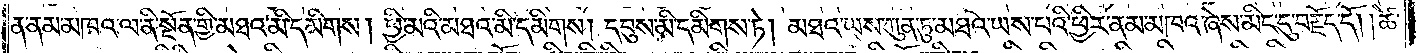ན་ནམ་མཁའ་ལ་ནི་སྔོན་གྱི་མཐའ་མི་དམིགས། ཕྱི་མའི་མཐའ་མི་དམིགས། དབུས་མི་དམིགས་ཏེ། མཐའ་ཡས་ཀུན་ཏུ་མཐའ་ཡས་པའི་ཕྱིར་ནམ་མཁའ་ཞེས་མིང་དུ་བརྗོད་དོ། །ཚེ་
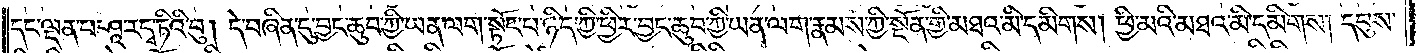དང་ལྡན་པ་ཤཱ་ར་དྭ་ཏིའི་བུ། དེ་བཞིན་དུ་བྱང་ཆུབ་ཀྱི་ཡན་ལག་སྟོང་པ་ཉིད་ཀྱི་ཕྱིར་བྱང་ཆུབ་ཀྱི་ཡན་ལག་རྣམས་ཀྱི་སྔོན་གྱི་མཐའ་མི་དམིགས། ཕྱི་མའི་མཐའ་མི་དམིགས། དབུས་
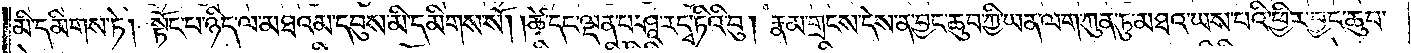མི་དམིགས་ཏེ། སྟོང་པ་ཉིད་ལ་མཐའམ་དབུས་མི་དམིགས་སོ། །ཚེ་དང་ལྡན་པ་ཤཱ་ར་དྭ་ཏིའི་བུ། རྣམ་གྲངས་དེས་ན་བྱང་ཆུབ་ཀྱི་ཡན་ལག་ཀུན་ཏུ་མཐའ་ཡས་པའི་ཕྱིར་བྱང་ཆུབ་
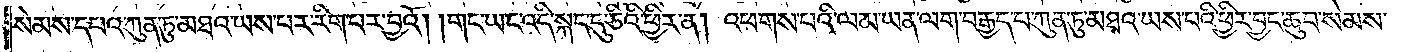སེམས་དཔའ་ཀུན་ཏུ་མཐའ་ཡས་པར་རིག་པར་བྱའོ། །གང་ཡང་འདི་སྐད་དུ་ཅིའི་ཕྱིར་ན། འཕགས་པའི་ལམ་ཡན་ལག་བརྒྱད་པ་ཀུན་ཏུ་མཐའ་ཡས་པའི་ཕྱིར་བྱང་ཆུབ་སེམས་
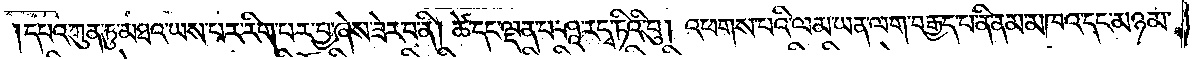དཔའ་ཀུན་ཏུ་མཐའ་ཡས་པར་རིག་པར་བྱ་ཞེས་ཟེར་བ་ནི། ཚེ་དང་ལྡན་པ་ཤཱ་ར་དྭ་ཏིའི་བུ། འཕགས་པའི་ལམ་ཡན་ལག་བརྒྱད་པ་ནི་ནམ་མཁའ་དང་མཉམ་
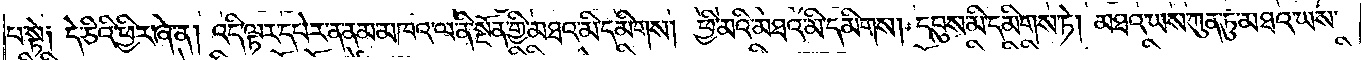པ་སྟེ། དེ་ཅིའི་ཕྱིར་ཞེ་ན། འདི་ལྟར་དཔེར་ན་ནམ་མཁའ་ལ་ནི་སྔོན་གྱི་མཐའ་མི་དམིགས། ཕྱི་མའི་མཐའ་མི་དམིགས། དབུས་མི་དམིགས་ཏེ། མཐའ་ཡས་ཀུན་ཏུ་མཐའ་ཡས་
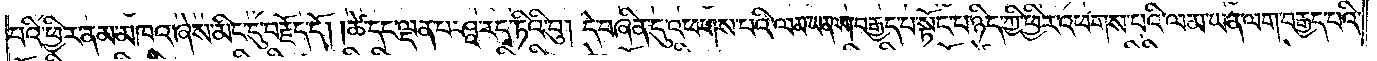པའི་ཕྱིར་ནམ་མཁའ་ཞེས་མིང་དུ་བརྗོད་དོ། །ཚེ་དང་ལྡན་པ་ཤཱ་ར་དྭ་ཏིའི་བུ། དེ་བཞིན་དུ་འཕགས་པའི་ལམ་ཡན་ལག་བརྒྱད་པ་སྟོང་པ་ཉིད་ཀྱི་ཕྱིར་འཕགས་པའི་ལམ་ཡན་ལག་བརྒྱད་པའི་
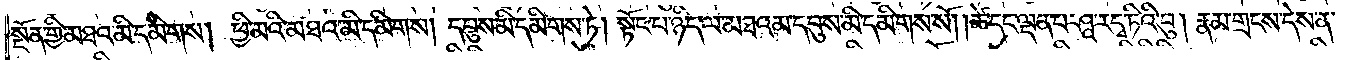སྔོན་གྱི་མཐའ་མི་དམིགས། ཕྱི་མའི་མཐའ་མི་དམིགས། དབུས་མི་དམིགས་ཏེ། སྟོང་པ་ཉིད་ལ་མཐའམ་དབུས་མི་དམིགས་སོ། །ཚེ་དང་ལྡན་པ་ཤཱ་ར་དྭ་ཏིའི་བུ། རྣམ་གྲངས་དེས་ན་
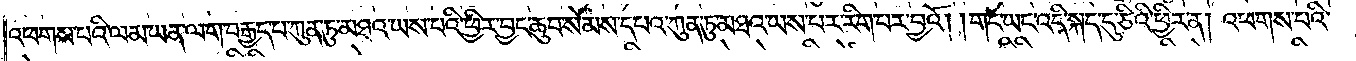འཕགས་པའི་ལམ་ཡན་ལག་བརྒྱད་པ་ཀུན་ཏུ་མཐའ་ཡས་པའི་ཕྱིར་བྱང་ཆུབ་སེམས་དཔའ་ཀུན་ཏུ་མཐའ་ཡས་པར་རིག་པར་བྱའོ། །གང་ཡང་འདི་སྐད་དུ་ཅིའི་ཕྱིར་ན། འཕགས་པའི་
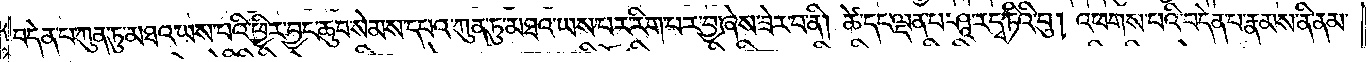བདེན་པ་ཀུན་ཏུ་མཐའ་ཡས་པའི་ཕྱིར་བྱང་ཆུབ་སེམས་དཔའ་ཀུན་ཏུ་མཐའ་ཡས་པར་རིག་པར་བྱ་ཞེས་ཟེར་བ་ནི། ཚེ་དང་ལྡན་པ་ཤཱ་ར་དྭ་ཏིའི་བུ། འཕགས་པའི་བདེན་པ་རྣམས་ནི་ནམ་
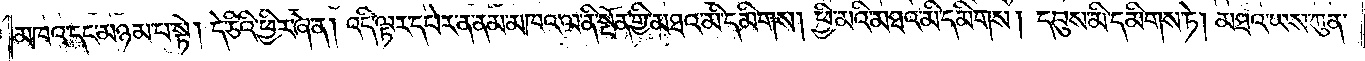མཁའ་དང་མཉམ་པ་སྟེ། དེ་ཅིའི་ཕྱིར་ཞེ་ན། འདི་ལྟར་དཔེར་ན་ནམ་མཁའ་ལ་ནི་སྔོན་གྱི་མཐའ་མི་དམིགས། ཕྱི་མའི་མཐའ་མི་དམིགས། དབུས་མི་དམིགས་ཏེ། མཐའ་ཡས་ཀུན་
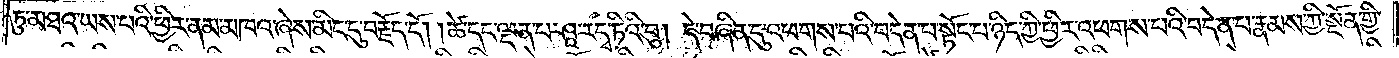ཏུ་མཐའ་ཡས་པའི་ཕྱིར་ནམ་མཁའ་ཞེས་མིང་དུ་བརྗོད་དོ། །ཚེ་དང་ལྡན་པ་ཤཱ་ར་དྭ་ཏིའི་བུ། དེ་བཞིན་དུ་འཕགས་པའི་བདེན་པ་སྟོང་པ་ཉིད་ཀྱི་ཕྱིར་འཕགས་པའི་བདེན་པ་རྣམས་ཀྱི་སྔོན་གྱི་
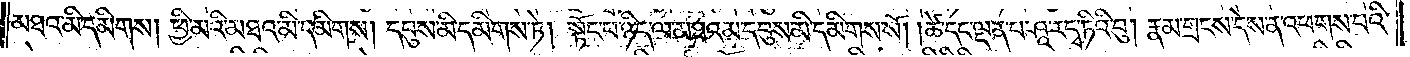མཐའ་མི་དམིགས། ཕྱི་མའི་མཐའ་མི་དམིགས། དབུས་མི་དམིགས་ཏེ། སྟོང་པ་ཉིད་ལ་མཐའམ་དབུས་མི་དམིགས་སོ། །ཚེ་དང་ལྡན་པ་ཤཱ་ར་དྭ་ཏིའི་བུ། རྣམ་གྲངས་དེས་ན་འཕགས་པའི་
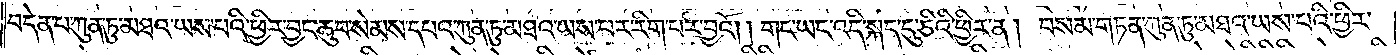བདེན་པ་ཀུན་ཏུ་མཐའ་ཡས་པའི་ཕྱིར་བྱང་ཆུབ་སེམས་དཔའ་ཀུན་ཏུ་མཐའ་ཡས་པར་རིག་པར་བྱའོ། །གང་ཡང་འདི་སྐད་དུ་ཅིའི་ཕྱིར་ན། བསམ་གཏན་ཀུན་ཏུ་མཐའ་ཡས་པའི་ཕྱིར་
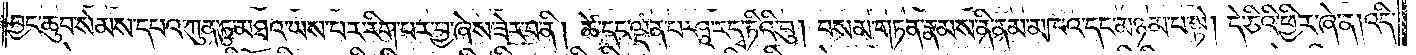བྱང་ཆུབ་སེམས་དཔའ་ཀུན་ཏུ་མཐའ་ཡས་པར་རིག་པར་བྱ་ཞེས་ཟེར་བ་ནི། ཚེ་དང་ལྡན་པ་ཤཱ་ར་དྭ་ཏིའི་བུ། བསམ་གཏན་རྣམས་ནི་ནམ་མཁའ་དང་མཉམ་པ་སྟེ། དེ་ཅིའི་ཕྱིར་ཞེ་ན། འདི་
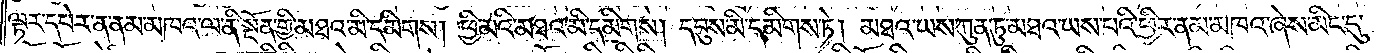ལྟར་དཔེར་ན་ནམ་མཁའ་ལ་ནི་སྔོན་གྱི་མཐའ་མི་དམིགས། ཕྱི་མའི་མཐའ་མི་དམིགས། དབུས་མི་དམིགས་ཏེ༑ མཐའ་ཡས་ཀུན་ཏུ་མཐའ་ཡས་པའི་ཕྱིར་ནམ་མཁའ་ཞེས་མིང་དུ་
